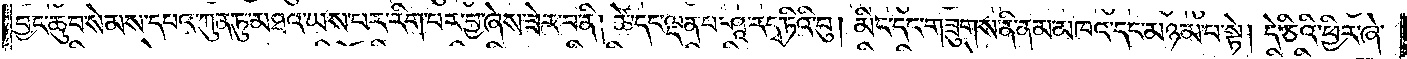བྱང་ཆུབ་སེམས་དཔའ་ཀུན་ཏུ་མཐའ་ཡས་པར་རིག་པར་བྱ་ཞེས་ཟེར་བ་ནི། ཚེ་དང་ལྡན་པ་ཤཱ་ར་དྭ་ཏིའི་བུ། མིང་དང་གཟུགས་ནི་ནམ་མཁའ་དང་མཉམ་པ་སྟེ། དེ་ཅིའི་ཕྱིར་ཞེ་
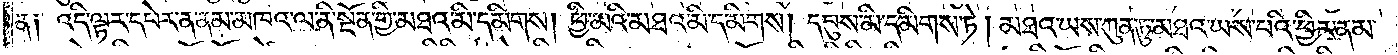ན། འདི་ལྟར་དཔེར་ན་ནམ་མཁའ་ལ་ནི་སྔོན་གྱི་མཐའ་མི་དམིགས། ཕྱི་མའི་མཐའ་མི་དམིགས། དབུས་མི་དམིགས་ཏེ། མཐའ་ཡས་ཀུན་ཏུ་མཐའ་ཡས་པའི་ཕྱིར་ནམ་
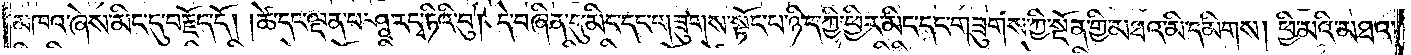མཁའ་ཞེས་མིང་དུ་བརྗོད་དོ། །ཚེ་དང་ལྡན་པ་ཤཱ་ར་དྭ་ཏིའི་བུ། དེ་བཞིན་དུ་མིང་དང་གཟུགས་སྟོང་པ་ཉིད་ཀྱི་ཕྱིར་མིང་དང་གཟུགས་ཀྱི་སྔོན་གྱི་མཐའ་མི་དམིགས། ཕྱི་མའི་མཐའ་
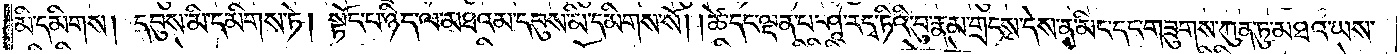མི་དམིགས། དབུས་མི་དམིགས་ཏེ། སྟོང་པ་ཉིད་ལ་མཐའམ་དབུས་མི་དམིགས་སོ། །ཚེ་དང་ལྡན་པ་ཤཱ་ར་དྭ་ཏིའི་བུ་རྣམ་གྲངས་དེས་ན་མིང་དང་གཟུགས་ཀུན་ཏུ་མཐའ་ཡས་
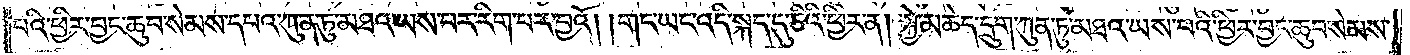པའི་ཕྱིར་བྱང་ཆུབ་སེམས་དཔའ་ཀུན་ཏུ་མཐའ་ཡས་པར་རིག་པར་བྱའོ། །གང་ཡང་འདི་སྐད་དུ་ཅིའི་ཕྱིར་ན། སྐྱེ་མཆེད་དྲུག་ཀུན་ཏུ་མཐའ་ཡས་པའི་ཕྱིར་བྱང་ཆུབ་སེམས་
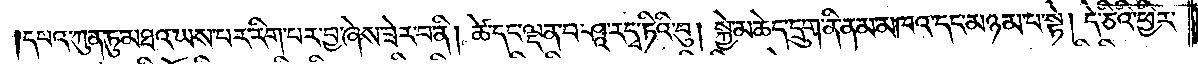དཔའ་ཀུན་ཏུ་མཐའ་ཡས་པར་རིག་པར་བྱ་ཞེས་ཟེར་བ་ནི། ཚེ་དང་ལྡན་པ་ཤཱ་ར་དྭ་ཏིའི་བུ། སྐྱེ་མཆེད་དྲུག་ནི་ནམ་མཁའ་དང་མཉམ་པ་སྟེ། དེ་ཅིའི་ཕྱིར་
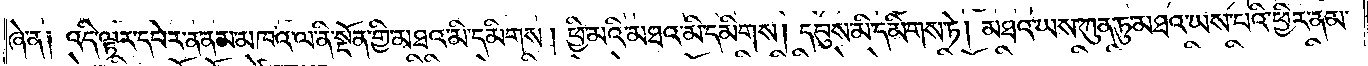ཞེ་ན། འདི་ལྟར་དཔེར་ན་ནམ་མཁའ་ལ་ནི་སྔོན་གྱི་མཐའ་མི་དམིགས། ཕྱི་མའི་མཐའ་མི་དམིགས། དབུས་མི་དམིགས་ཏེ། མཐའ་ཡས་ཀུན་ཏུ་མཐའ་ཡས་པའི་ཕྱིར་ནམ་
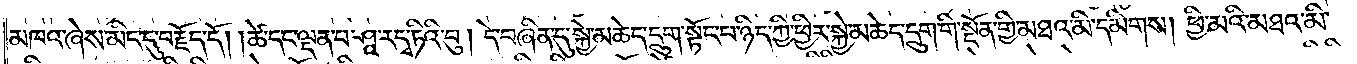མཁའ་ཞེས་མིང་དུ་བརྗོད་དོ། །ཚེ་དང་ལྡན་པ་ཤཱ་ར་དྭ་ཏིའི་བུ། དེ་བཞིན་དུ་སྐྱེ་མཆེད་དྲུག་སྟོང་པ་ཉིད་ཀྱི་ཕྱིར་སྐྱེ་མཆེད་དྲུག་གི་སྔོན་གྱི་མཐའ་མི་དམིགས། ཕྱི་མའི་མཐའ་མི་
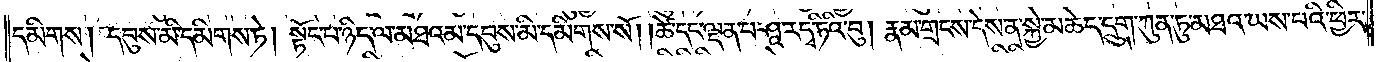དམིགས། དབུས་མི་དམིགས་ཏེ། སྟོང་པ་ཉིད་ལ་མཐའམ་དབུས་མི་དམིགས་སོ། །ཚེ་དང་ལྡན་པ་ཤཱ་ར་དྭ་ཏིའི་བུ། རྣམ་གྲངས་དེས་ན་སྐྱེ་མཆེད་དྲུག་ཀུན་ཏུ་མཐའ་ཡས་པའི་ཕྱིར་
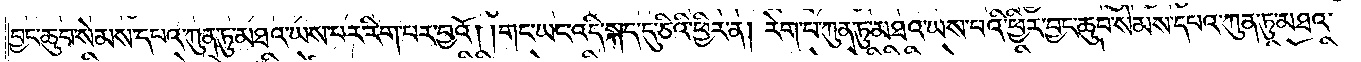བྱང་ཆུབ་སེམས་དཔའ་ཀུན་ཏུ་མཐའ་ཡས་པར་རིག་པར་བྱའོ། །གང་ཡང་འདི་སྐད་དུ་ཅིའི་ཕྱིར་ན། རེག་པ་ཀུན་ཏུ་མཐའ་ཡས་པའི་ཕྱིར་བྱང་ཆུབ་སེམས་དཔའ་ཀུན་ཏུ་མཐའ་
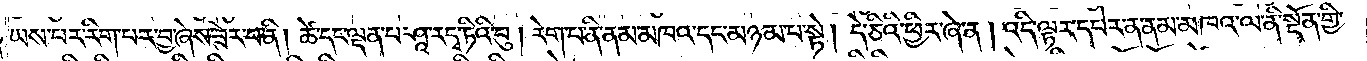ཡས་པར་རིག་པར་བྱ་ཞེས་ཟེར་བ་ནི། ཚེ་དང་ལྡན་པ་ཤཱ་ར་དྭ་ཏིའི་བུ། རེག་པ་ནི་ནམ་མཁའ་དང་མཉམ་པ་སྟེ། དེ་ཅིའི་ཕྱིར་ཞེ་ན། འདི་ལྟར་དཔེར་ན་ནམ་མཁའ་ལ་ནི་སྔོན་གྱི་
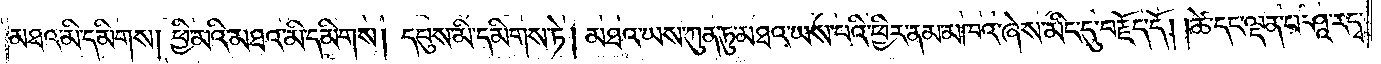མཐའ་མི་དམིགས། ཕྱི་མའི་མཐའ་མི་དམིགས། དབུས་མི་དམིགས་ཏེ། མཐའ་ཡས་ཀུན་ཏུ་མཐའ་ཡས་པའི་ཕྱིར་ནམ་མཁའ་ཞེས་མིང་དུ་བརྗོད་དོ། །ཚེ་དང་ལྡན་པ་ཤཱ་ར་དྭ་
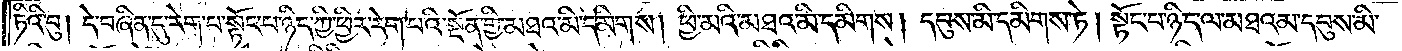ཏིའི་བུ། དེ་བཞིན་དུ་རེག་པ་སྟོང་པ་ཉིད་ཀྱི་ཕྱིར་རེག་པའི་སྔོན་གྱི་མཐའ་མི་དམིགས། ཕྱི་མའི་མཐའ་མི་དམིགས། དབུས་མི་དམིགས་ཏེ། སྟོང་པ་ཉིད་ལ་མཐའམ་དབུས་མི་
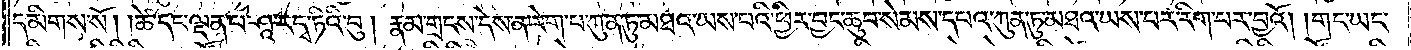དམིགས་སོ། །ཚེ་དང་ལྡན་པ་ཤཱ་ར་དྭ་ཏིའི་བུ། རྣམ་གྲངས་དེས་ན་རེག་པ་ཀུན་ཏུ་མཐའ་ཡས་པའི་ཕྱིར་བྱང་ཆུབ་སེམས་དཔའ་ཀུན་ཏུ་མཐའ་ཡས་པར་རིག་པར་བྱའོ། །གང་ཡང་
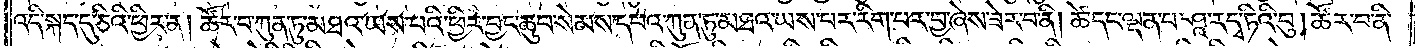འདི་སྐད་དུ་ཅིའི་ཕྱིར་ན། ཚོར་བ་ཀུན་ཏུ་མཐའ་ཡས་པའི་ཕྱིར་བྱང་ཆུབ་སེམས་དཔའ་ཀུན་ཏུ་མཐའ་ཡས་པར་རིག་པར་བྱ་ཞེས་ཟེར་བ་ནི། ཚེ་དང་ལྡན་པ་ཤཱ་ར་དྭ་ཏིའི་བུ། ཚོར་བ་ནི་
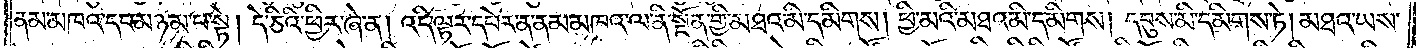ནམ་མཁའ་དང་མཉམ་པ་སྟེ། དེ་ཅིའི་ཕྱིར་ཞེ་ན། འདི་ལྟར་དཔེར་ན་ནམ་མཁའ་ལ་ནི་སྔོན་གྱི་མཐའ་མི་དམིགས། ཕྱི་མའི་མཐའ་མི་དམིགས། དབུས་མི་དམིགས་ཏེ། མཐའ་ཡས་
